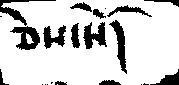ཅེས་སོ།
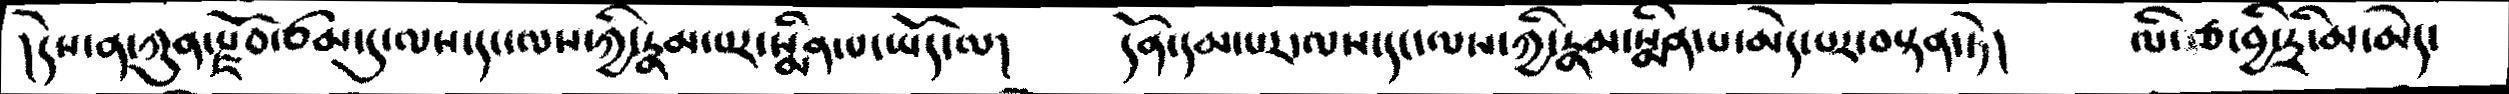།དེས་ན་ཀུན་རྫོབ་ཙམ་དུ་ལས་དང་ལས་ཀྱི་རྣམ་པར་སྨིན་པ་ཡོད་ལ།    དོན་དམ་པར་ལས་དང་ལས་ཀྱི་རྣམ་སྨིན་པ་མེད་པར་བསྟན་ཏེ།    ལི་རྩ་བྱི་དྲི་མ་མེད་
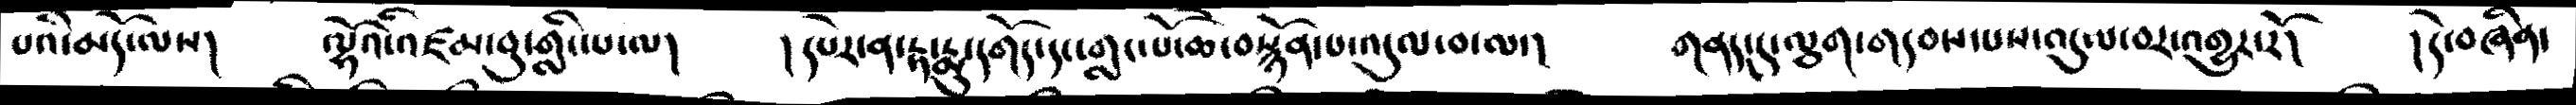པའི་མདོ་ལས།    ལྷོའི་འཛམ་བུ་གླིང་པ་ལ།     །དཔེར་ན་རྟ་རྨུ་དགོད་དང་གླང་པོ་ཆེ་བསྙོན་པ་འདུལ་བ་ལ་།     གནད་དུ་ལྕག་གདབས་པས་འདུལ་བར་འགྱུར་རོ།   །དེ་བཞིན་
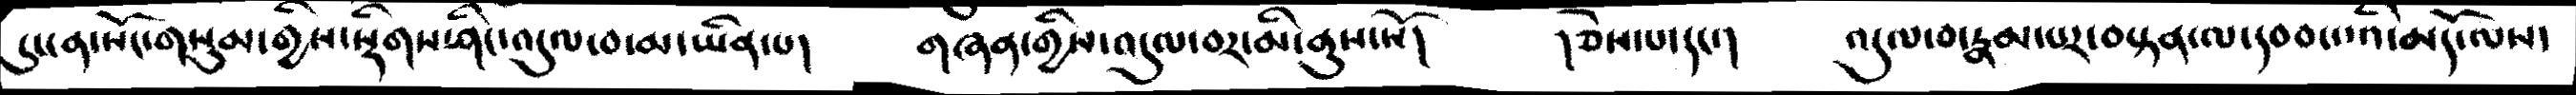དུ་ངན་སོང་གསུམ་གྱིས་སྡིགས་ཤིང་འདུལ་བ་མ་ཡིན་པ།    གཞན་གྱིས་འདུལ་བར་མི་ནུས་སོ།     ཅེས་པ་དང་།   འདུལ་བ་རྣམ་པར་བསྟན་ལ་དབབ་པའི་མདོ་ལས་
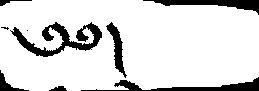༄༅།
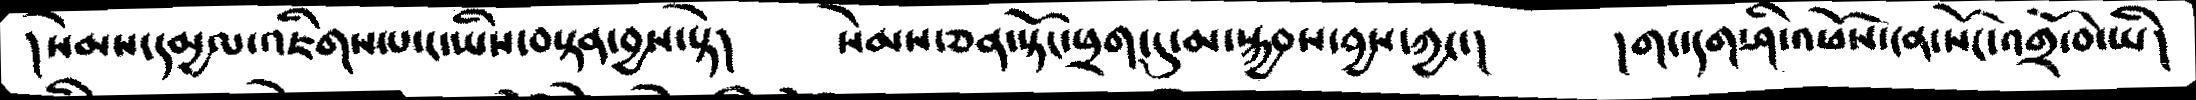།སེམས་དམྱལ་འཇིགས་པ་ང་ཡིས་བསྟན་བྱས་སྟེ།       སེམས་ཅན་སྟོང་ཕྲག་དུ་མ་སྐྱབས་བྱས་ཀྱང་།     །གང་དག་ཤི་འཕོས་ངན་སོང་འགྲོ་བ་ཡི།
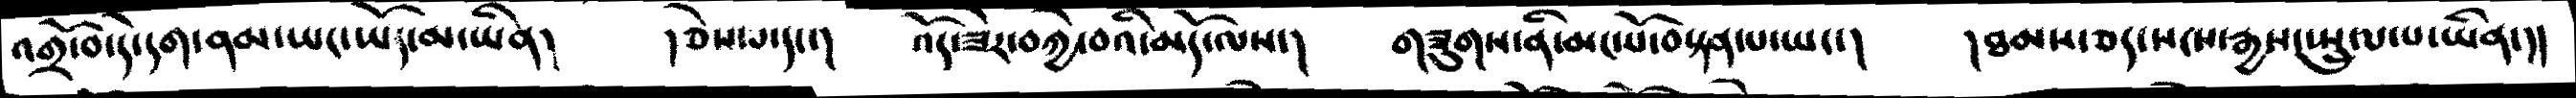འགྲོ་བ་དེ་དག་ནམ་ཡང་ཡོད་མ་ཡིན།    །ཅེས་པ་དང་།    འོད་ཟེར་བཀྱེ་བའི་མདོ་ལས་།    གཟུགས་ནི་མང་པོ་བསྟན་པ་ཡང་།    །ཐམས་ཅད་སངས་རྒྱས་སྤྲུལ་པ་ཡིན་།།
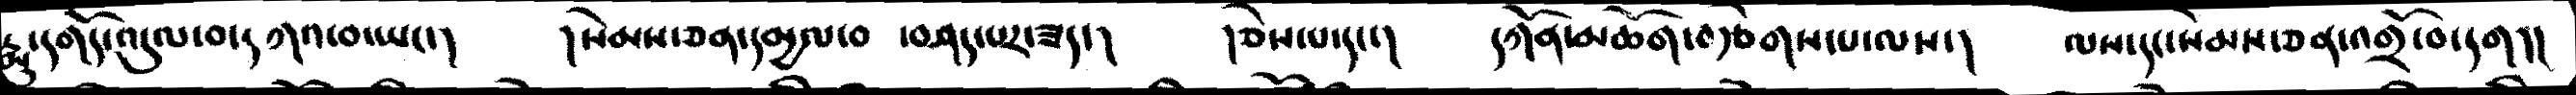རྨུ་དགོད་འདུལ་བ་དཀའ་བ་ཡང་།     །སེམས་ཅན་དམྱལ་བ  ་བཤད་པར་ཟད་།    །ཅེས་པ་དང་།    དཀོན་མཆོག་བརྩེགས་པ་ལས་།    ལས་དང་སེམས་ཅན་འགྲོ་བ་དག།།
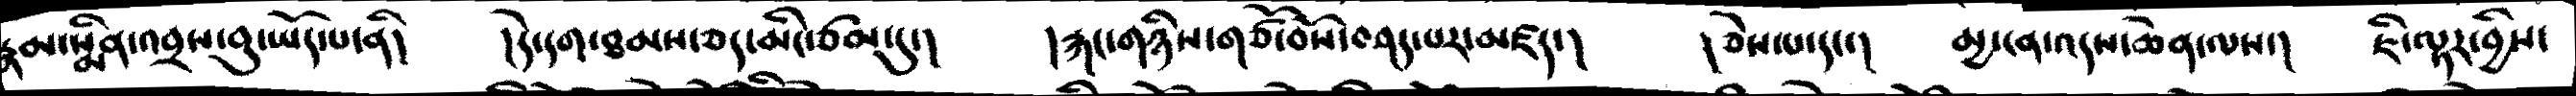རྣམ་སྨིན་འབྲས་བུ་ཡོད་པ་ནི།    །དེ་དག་ཐམས་ཅད་མིང་ཙམ་དུ་།    རྐང་གཉིས་གཙོ་བོས་བཤད་པར་མཛད་།   །ཅེས་པ་དང་།   མྱ་ངན་འདས་ཆེན་ལས་།    ཇི་ལྟར་བྱིས་
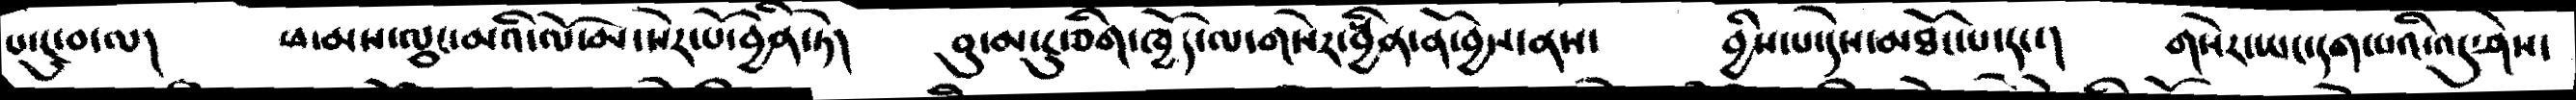པ་ངུ་བ་ལ།   ཕ་མས་ལྕང་མའི་ལོ་མ་སེར་པོ་བྱིན་ཏེ།   བུ་མ་ངུ་ཅིག་ཁྱོད་ལ་གསེར་སྦྱིན་ནོ་བྱས་ནས་     བྱིས་པ་དེས་མཐོང་པ་དང་།    གསེར་ཡང་དག་པའི་འདུ་ཤེས་
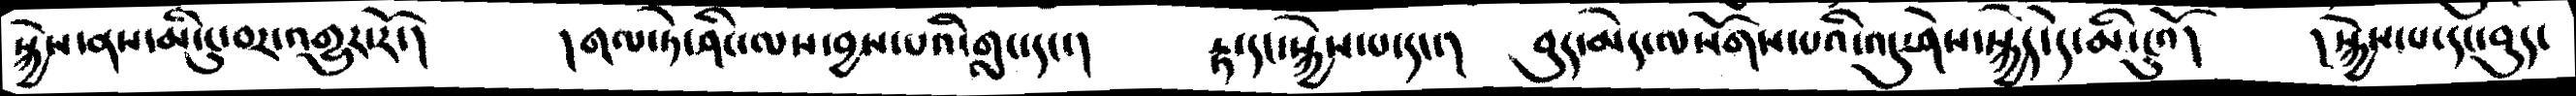སྐྱེས་ནས་མི་ངུ་བར་འགྱུར་།     །གལ་ཏེ་ཤིང་ལས་བྱས་པའི་གླང་དང་།    རྟ་དང་སྐྱེས་པ་དང་།   བུད་མེད་ལསོགས་པའི་འདུ་ཤེས་སྐྱེད་དེ་མི་ངུའོ།    །སྐྱེས་པ་དང་བུད་
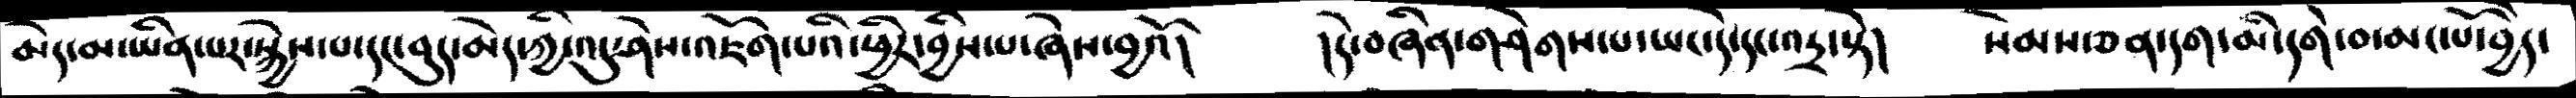མེད་མ་ཡིན་པར་སྐྱེས་པ་དང་བུད་མེད་ཀྱི་འདུ་ཤེས་འཇོག་པའི་ཕྱིར་བྱིས་པ་ཞེས་བྱའོ།     །དེ་བཞིན་གཤེགས་པ་ཡང་དེ་དང་འདྲ་སྟེ།      སེམས་ཅན་དག་མི་དགེ་བ་མང་པོ་བྱེད་
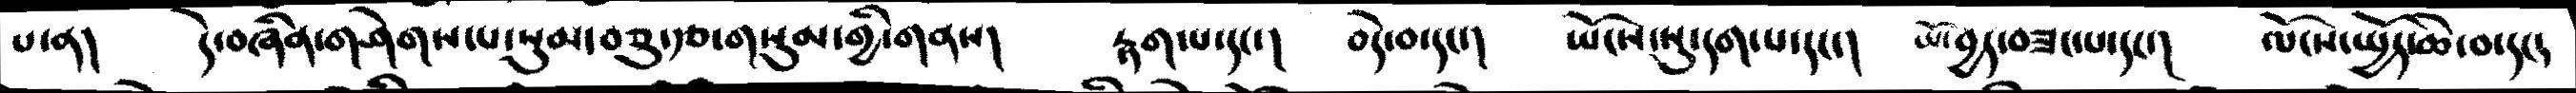པ་ན།    དེ་བཞིན་གཤེགས་པ་སུམ་བཅུ་རྩ་གསུམ་གྱི་གནས།    རྟགཔ་དང་།     བདེ་བ་དང་།     ཡོངས་སུ་དག་པ་དང་།   ཡོད་བྱད་བཟང་པ་དང་།   ལོངས་ཡྱོད་ཆེ་བ་དང།
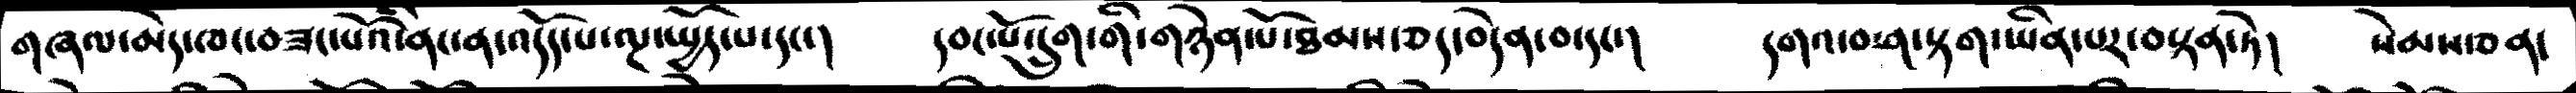གཞལ་མེད་ཁང་བཟང་པོའི་ནང་ན་འདོད་པ་ལྔ་ཡྱོད་པ་དང་།    དབང་པོ་དྲུག་གི་གཉེན་པོ་ཐམས་ཅད་བདེན་བ་དང་།     དགའ་བ་ཤ་སྟག་ཡིན་པར་བསྟན་ཏེ།    སེམས་ཅན་
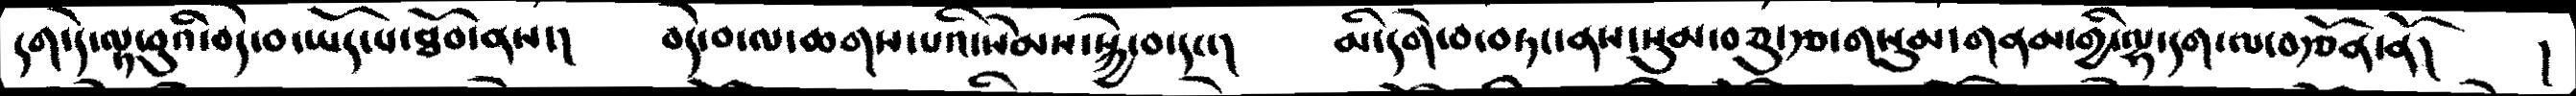དག་དེ་ལྟ་བུའི་བདེ་བ་ཡོད་པ་ཐོབ་ནས་།    བདེ་བ་ལ་ཆགས་པའི་སེམས་སྐྱེ་བ་དང་།     མི་དགེ་བ་བཏང་ནས་སུམ་ཅུ་རྩ་གསུམ་གནམ་གྱི་ལྷ་དག་ལ་བརྩོན་་ནོ།   །
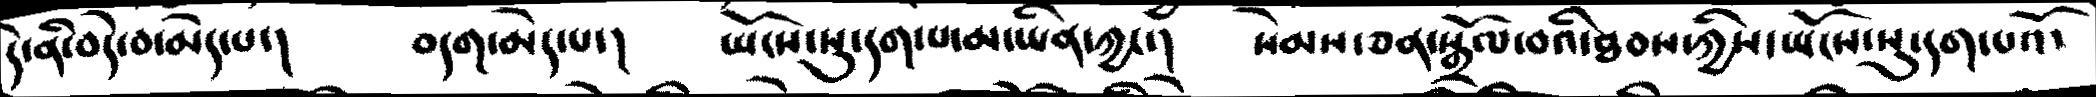དེ་ནི་བདེ་བ་མེད་པ་།      བདག་མེད་པ་།      ཡོངས་སུ་དག་པ་མ་ཡིན་ཀྱང་།     སེམས་ཅན་སྒྲོལ་བའི་ཐབས་ཀྱིས་ཡོངས་སུ་དག་པའོ་
